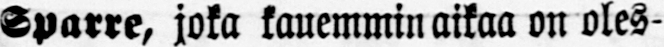Sparre, joka kauemmin aikaa on oles-
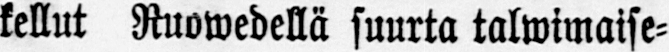kellut Ruowedellä suurta talwimaise-
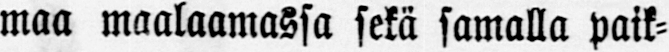maa maalaamassa sekä samalla paik-
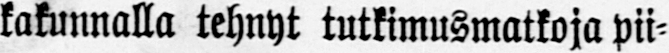kakunnalla tehnyt tutkimusmatkoja pii-
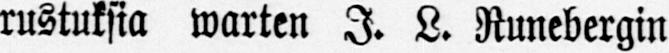rustuksia warten I. L. Runebergin
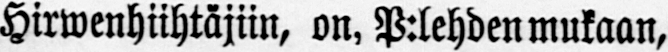Hirwenhiihtäjiin, on, P:lehden mukaan,
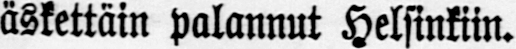äskettäin palannut Helsinkiin.
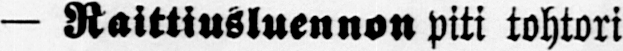— Raittiusluennon piti tohtori
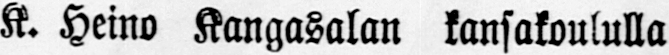K. Heino Kangasalan kansakoululla
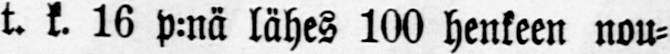t. k. 16 p:nä lähes 100 henkeen nou-
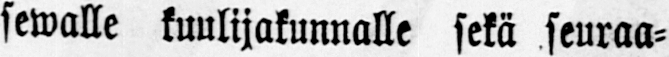sewalle kuulijakunnalle sekä seuraa-
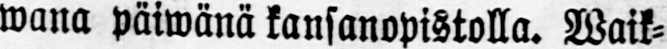wana päiwänä kansanopistolla. Waik-
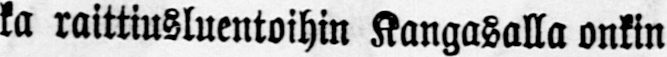ka raittiusluentoihin Kangasalla onkin
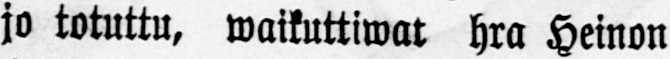jo totuttu, waikuttiwat hra Heinon
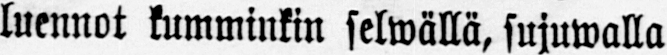luennot kumminkin selwällä, sujuwalla
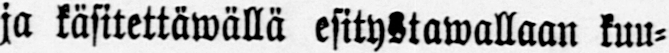ja käsitettäwällä esitystawallaan kuu-
